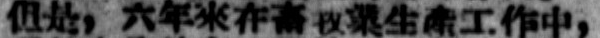但是，六年來在畜牧業生產工作中，
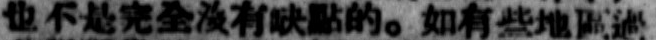也不是完全沒有缺點的。如有些地區過
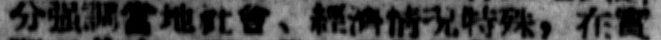分強調當地社會、經濟情況特殊，在實
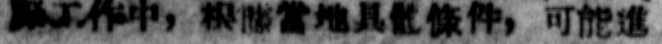際工作中，根據當地具體條件，可能進
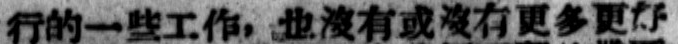行的一些工作，也沒有或沒有更多更好
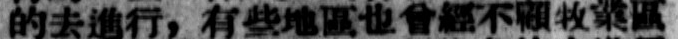的區進行，有些地區也曾經不顧牧業區
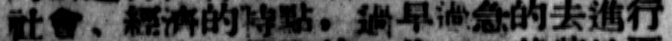社會、經濟的特點，過早過急的去進行
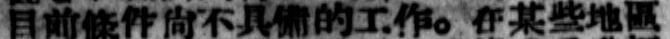目前條件尚不具備的工作。在某些地區
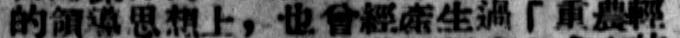的領導思想上，也曾經產生過「重農輕
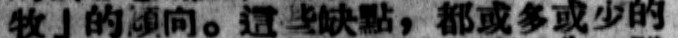牧」的傾向。這些缺點，都或多或少的
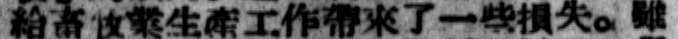給畜牧業生產工作帶來了一些損失。雖
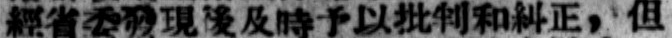經省委發現後及時予以批判和糾正，但
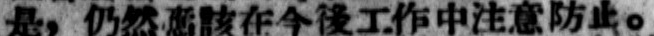是，仍然應該在今後工作中注意防止。
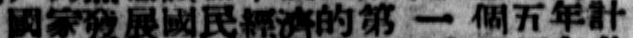國家發展國民經濟的第 一 個五年計
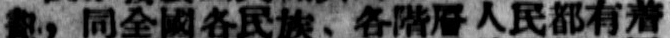劃，同全國各民族、各階層人民都有着
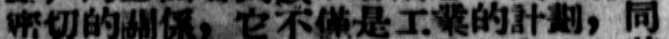密切的關係，它不僅是工業的計劃，同
